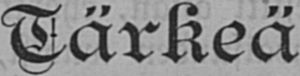Tärkeä
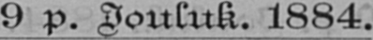9 p. Jouluk. 1884.
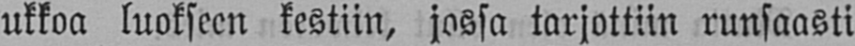ukkoa luokseen kestiin, jossa tarjottiin runsaasti
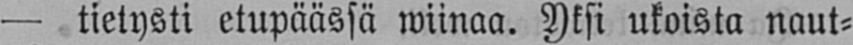— tietysti etupäässä wiinaa. Yksi ukoista naut-
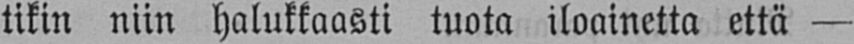tiikin niin halukkaasti tuota iloainetta että —
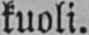kuoli.
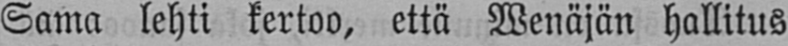Sama lehti kertoo, että Wenäjän hallitus
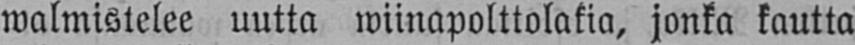walmistelee uutta wiinapolttolakia, jonka kautta
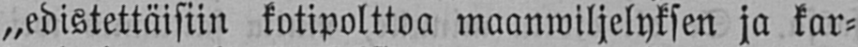„edistettäisiin kotipolttoa maanwiljelyksen ja kar-
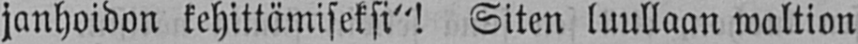janhoidon kehittämiseksi"! Siten luullaan waltion
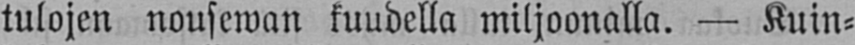tulojen nousewan kuudella miljoonalla. — Kuin-
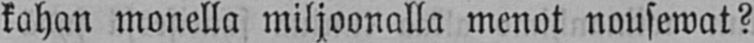kahan monella miljoonalla menot nousewat?
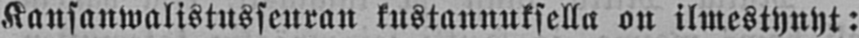Kansanwalistusseuran kustannuksella on ilmestynyt:
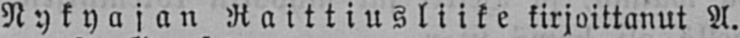Nykyajan Raittiusliike kirjoittanut A.
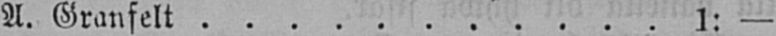A. Granfelt........... 1: —
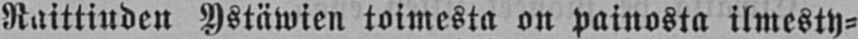Raittiuden Ystäwien toimesta on painosta ilmesty-
